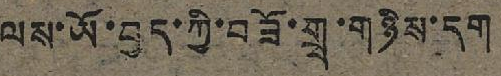ལས་ཡོ་བྱད་ཀྱི་བཟོ་གྲྭ་གཉིས་དག
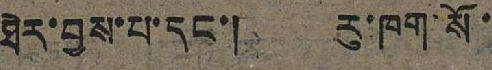ཐེར་བྱས་པ་དང་། རུ་ཁག་སོ་
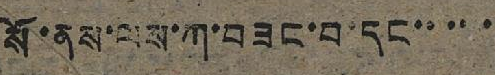སོ་ནས་ལས་ཀ་བཟང་བ་དང་་་་་
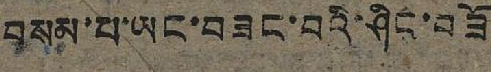བསམ་པ་ཡང་བཟང་བའི་ཤིང་བཟོ
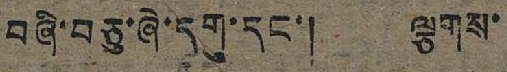བཞི་བཅུ་ཞེ་དགུ་དང་། ལྕགས་
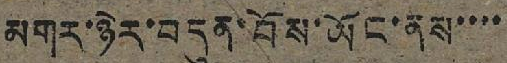མགར་ཉེར་བདུན་བོས་ཡོང་ནས་་་་
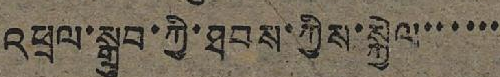འཕྲལ་སྒྲུབ་ཀྱི་ཐབས་ཀྱིས་སྐྱེལ་་་་་་
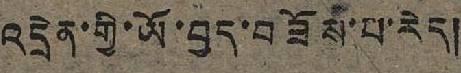འདྲེན་གྱི་ཡོ་བྱད་བཟོས་པ་རེད།
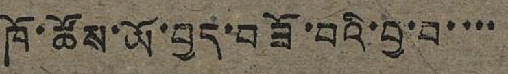ཁོ་ཚོས་ཡོ་བྱད་བཟོ་བའི་བྱ་བ་་་་
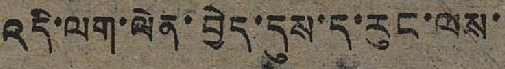འདི་ལག་ལེན་བྱེད་དུས་ད་རུང་ལས་
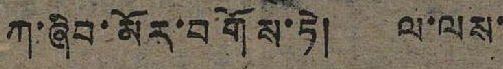ཀ་ཞིབ་མོར་བགོས་ཏེ། ལ་ལས་
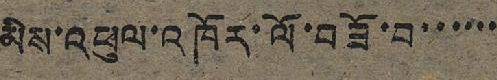མིས་འཕུལ་འཁོར་ལོ་བཟོ་བ་་་་་་
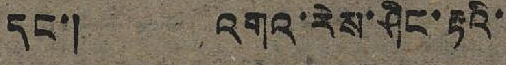དང་། འགའ་རེས་ཤིང་རྟའི་
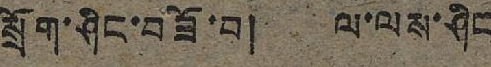སྲོག་ཤིང་བཟོ་བ། ལ་ལས་ཤིང
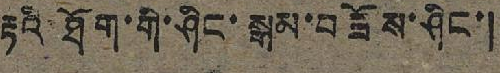རྟའི་ཐོག་གི་ཤིང་སྒམ་བཟོས་ཤིང་།
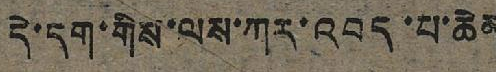དེ་དག་གིས་ལས་ཀར་འབད་པ་ཆེན
